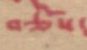བཅས་
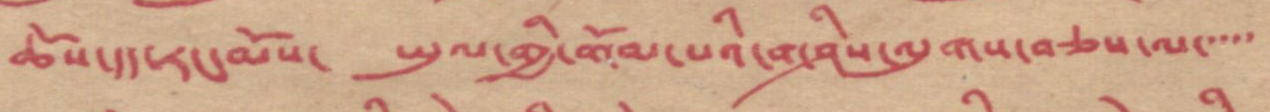ཆོས་དད་རང་མོས་ ཡུལ་གྱི་གོམ་པའི་གཤིས་ལུགས་བཅས་ལ་་་་་
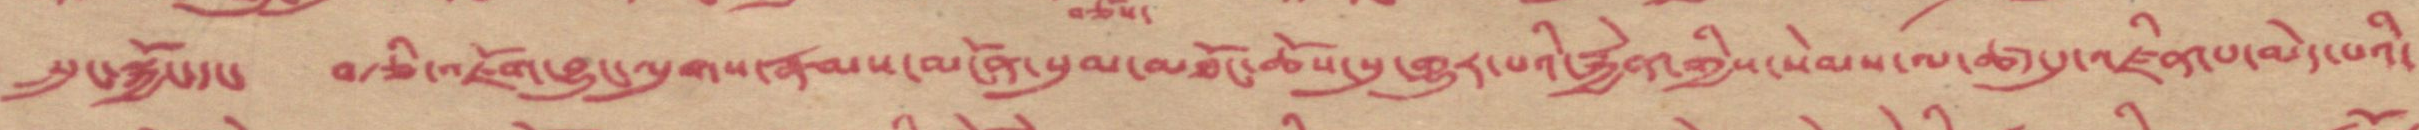སྲུང་སྐྱོང་དང་ བརྩི་འཇོག་བྱུང་ལུགས་རྣམས་མངོན་སུམ་མཐོང་ཆོས་སུ་གྱུར་པའི་རྐྱེན་གྱིས་སེམས་ལ་ཚད་དུ་འཛིན་པ་མེད་པའི་
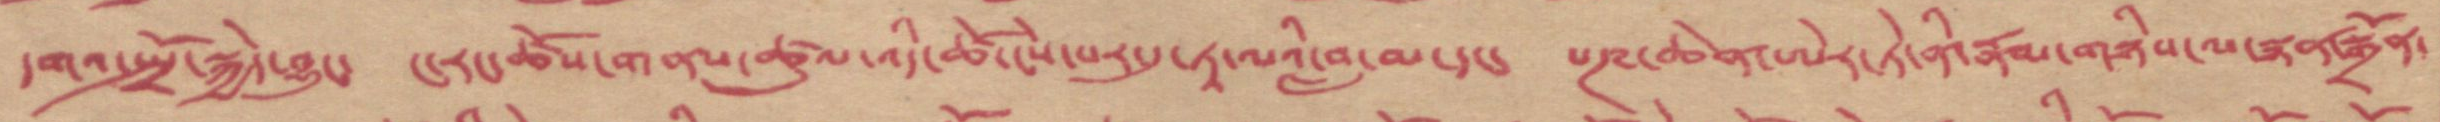དགའ་སྤྲོ་སྐྱེད་བྱུང་ ང་རང་ཆོས་གནས་ཚུལ་འདི་ཚོ་ངེས་པར་དྱ་ཏྰ་ལའི་བླ་མ་དང་ པཎ་ཆེན་ཨེར་ཏེ་ནི་རྣམ་གཉིས་པ་སྙན་སྒྲོན་
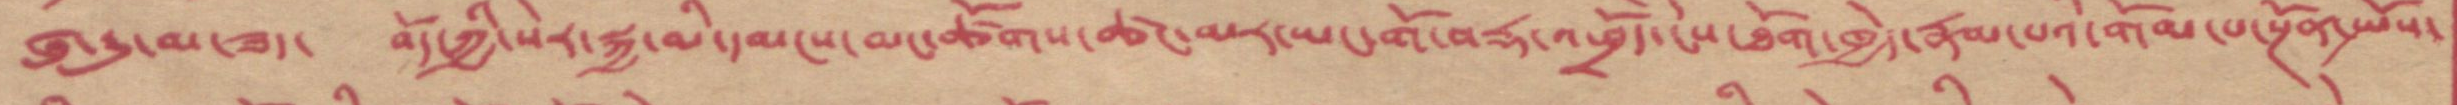ཞུ་རྒྱུ་མ་ཟད་ བོད་ཀྱི་སེར་སྐྱ་མི་དམངས་མང་ཚོགས་ཚང་མར་ཡང་གོ་བརྡ་འཕྲོད་ངེས་ཐོག་ཁྱེད་རྣམ་པའི་གོམ་པ་སྔོན་སྤོས་
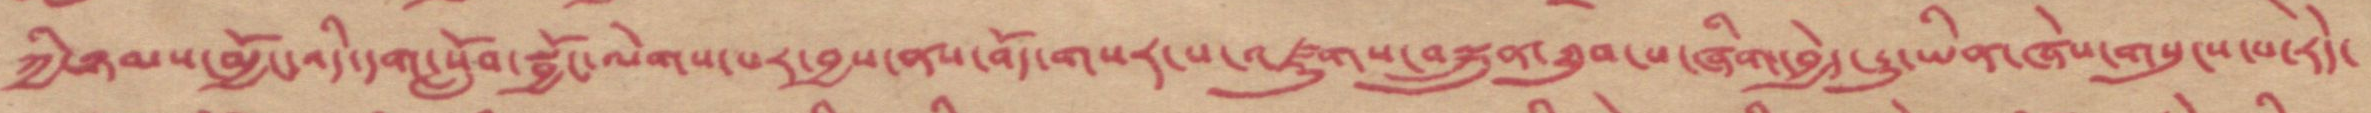ཀྱི་ཉམས་བྱོང་འདི་དག་སློབ་སྦྱོང་ལེགས་པར་བྱས་ནས་བོད་གསར་པ་འཛུགས་བསྐྲུན་ཐུབ་པ་ཞིག་བྱེད་རྒྱུ་ཡིན་ཞེས་གསུངས་པ་རེད་
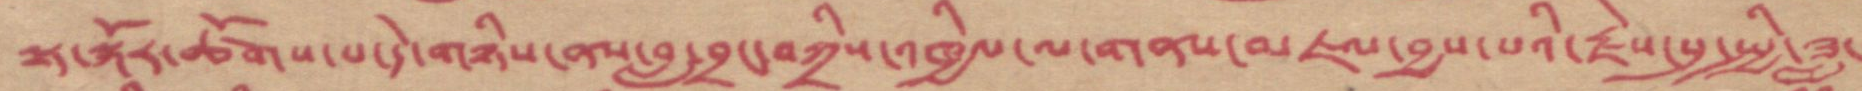ལྟ་སྐོར་ཚོགས་པ་དེ་གཉིས་ནས་བླ་བྲང་བཀྲིས་འཁྱིལ་ལ་གནས་མཇལ་བྱས་པའི་རྗེས་སུ་སྤྱི་ཟླ་
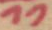༡༡
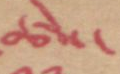ཚེས་
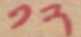༡༢
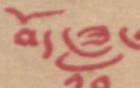བོད་ཟླ་
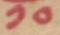༡༠
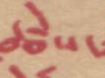ཚེས་
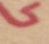༦
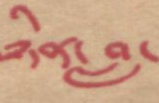ཉིན་བླ་
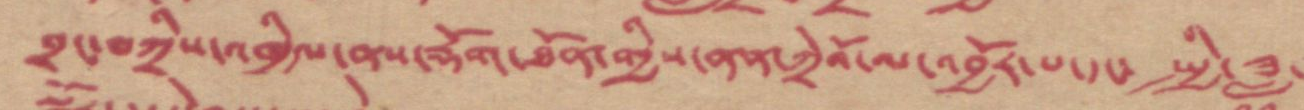བྲང་བཀྲིས་འཁྱིལ་ནས་རྡོག་ཐོན་གྱིས་ནན་ཀྲེའོ་ལ་དང་སྤྱི་ཟླ་
